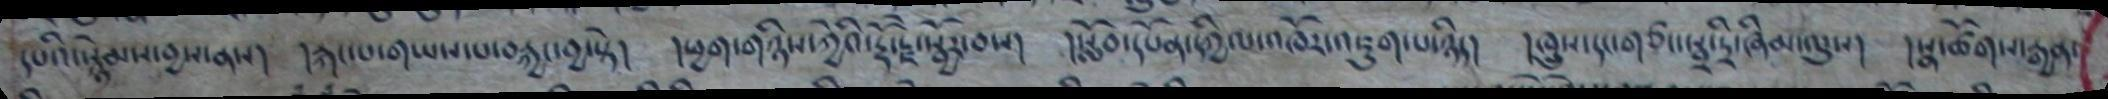དཔའི་སྙེམས་བྱས་ནས། །རྐང་པ་གཡས་པ་བརྐྱང་བྱ་སྟེ། །ཕྱག་གཉིས་ཀྱེའི་རྡོ་རྗེ་སྦྱོར་བས། །སློབ་དཔོན་དཀྱིལ་འཁོར་འཇུག་པ་ཉིད། །ཁྲུས་དང་གཙང་སྦྲ་དྲི་ཞིམ་ལུས། །སྣ་ཚོགས་རྒྱན་
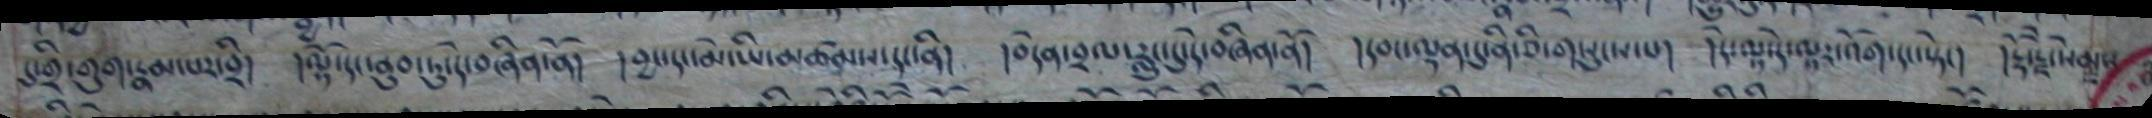དུ་གྲི་གུག་རྣམ་པར་བྲི། །ལྷི་དང་ནུབ་ཏུ་དེ་བཞིན་ནོ། །བྱང་དང་མེ་ཡི་མཚམས་དང་ནི། །བདེན་བྲལ་རླུང་དུ་དེ་བཞིན་ནོ། །དབང་ལྡན་དུ་ནི་ཅི་གསུངས་པ། །དེ་ལྟར་དེ་ལྟར་འོག་དང་སྟེང། །རྡོ་རྗེ་སེམས
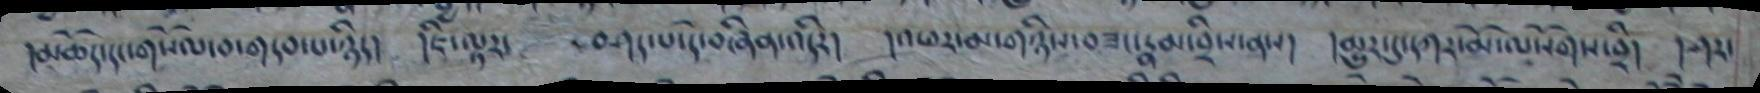།མཆོད་དང་གསོལ་བ་གདབ་པ་ཉིད། །ཇི་ལྟར་ བཤད་པ་དེ་བཞིན་འདིར། །འཕར་མ་གཉིས་བཟང་རྣམ་བྲིས་ནས། །མྱུར་དུ་དཀར་མོ་ལསོགས་བྲི། །ཤར་
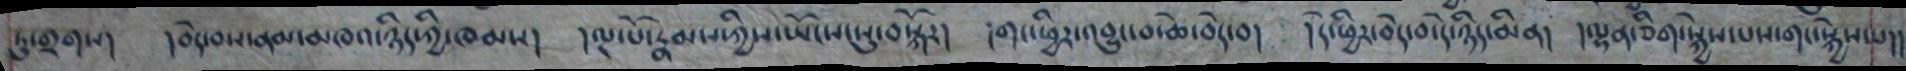ཏུ་གྲགས། །བདེ་བས་ནམ་མཁའ་ཉིད་ཀྱི་ཁམས། །ལྔ་པོ་རྣམས་ཀྱིས་ཡོངས་སུ་བསྐོར། །གང་ཕྱིར་འབྱུང་བ་ཆེ་བདེ་བ། །དེ་ཕྱིར་བདེ་བ་དེ་ཉིད་མིན། །ལྷན་ཅིག་སྐྱེས་པས་གང་སྐྱེས་པ།།
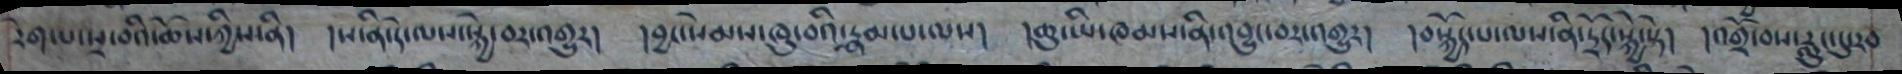རེག་པ་སྲ་བའི་ཆོས་ཀྱིས་ནི། །ས་ནི་དེ་ལས་སྐྱེ་བར་འགྱུར། །བྱང་སེམས་ཁུ་བའི་རྣམ་པ་ལས། །ཆུ་ཡི་ཁམས་ནི་འབྱུང་བར་འགྱུར། །བསྐྱོད་པ་ལས་ནི་དྲོད་སྐྱེ་སྟེ། །འགྲོ་བས་རླུང་དུ་རབ
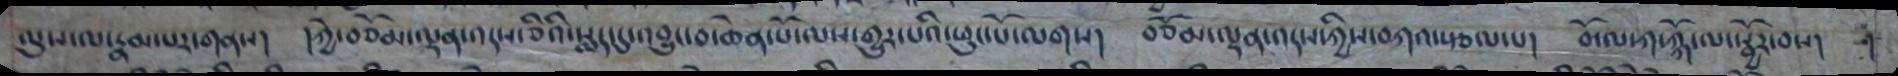ལུས་ལ་རྣམ་པར་གནས། །ཀྱེ་བཅོམ་ལྡན་འདས་ཅིའི་སྨད་དུ་འབྱུང་བ་ཆེན་པོ་ལས་གྱུར་པའི་ཕུང་པོ་ལགས། བཅོམ་ལྡན་འདས་ཀྱིས་བཀའ་སྩལ་པ། བོ་ལ་ཀ་ཀྐོ་ལ་སྦྱོར་བས།
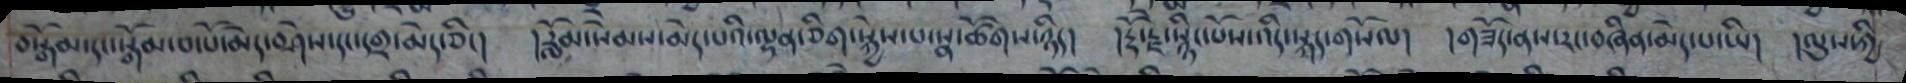བསྒོམ་དང་སྒོམ་བ་པོ་མེད་བཤེས་དང་དགྲ་མེད་ཅིང། །རློམ་སེམས་མེད་པའི་ལྷན་ཅིག་སྐྱེས་པ་སྣ་ཚོགས་ཉིད། །རྡོ་རྗེ་སྙིང་པོས་འདི་སྐད་གསོལ། །གཟོད་ནས་རང་བཞིན་མེད་པ་ཡི། །ལུས་ཀྱི
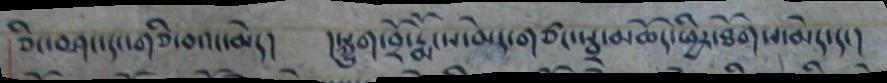ཅིང་བཤད་དང་གཅི་བའང་མེད། །སྐྱུག་བྲོ་རྨོངས་མེད་གཙང་སྦྲ་མཆོད་ཕྱིར་ཐོགས་མེད་དང།
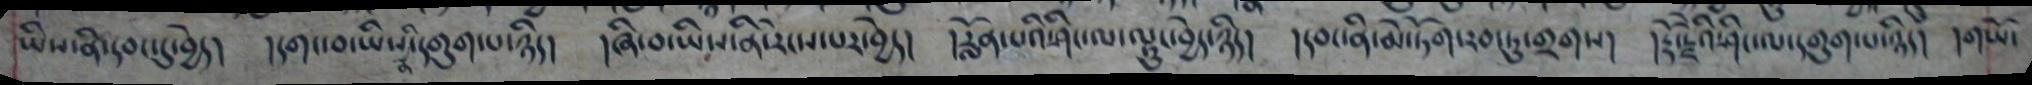ཡིས་ནི་དབང་དུ་བྱེད།   །དགང་བ་ཡིས་ནི་དགུག་པ་ཉིད།      །ཞི་བ་ཡིད་ནི་རེངས་པར་བྱེད།   རློན་པའི་ཤིང་ལ་ལྷུང་བྱེད་ཉིད།   །དབང་ནི་མེ་ཏོག་རབ་ཏུ་གྲགས།   །རྡོ་རྗེའི་ཤིང་ལ་དགུག་པ་ཉིད།   དགཡོ་
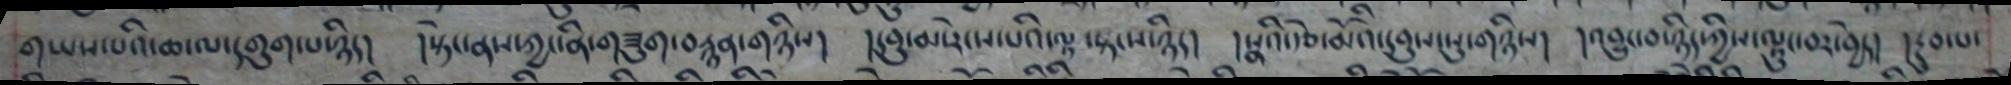གཡས་པའི་ཆ་ལ་དགུག་པ་ཉིད། །སྟེང་ནས་ཀྱང་ནི་གཟུག་བརྙན་གཉིས། །སབུ་མ་རེངས་པའི་ལྟ་སྟངས་ཉིད། །སྣའི་རྩེ་མོའི་དབུས་སུ་གཉིས། །འབྱུང་བ་ཉིད་ཀྱིས་ལྟུང་བར་བྱེད། །རྔུབ་པ་
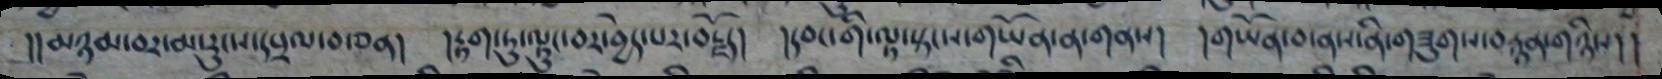།།མཉམ་བར་མ་རུངས་དཔྲལ་བ་ཅན། །རྟག་ཏུ་ལྟུང་བར་བྱེད་པར་བརྗོད། །དབང་གི་ལྟ་སྟངས་གཡོན་ན་གནས། །གཡོན་བ་ནས་ནི་གཟུགས་བརྙན་གཉིས།།
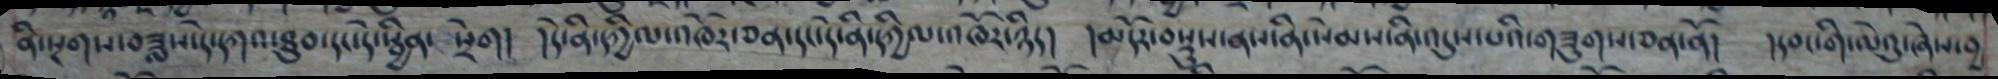ནི་སྔགས་བཟླས་དེ་དཀའ་ཐུབ་དང་དེ་སྦྱིན་ སྲེག། །དེ་ནི་དཀྱིལ་འཁོར་ཅན་དང་དེ་ནི་དཀྱིལ་འཁོར་ཉིད། །མདོར་བསྡུས་ནས་ནི་སེམས་ནི་འདུས་པའི་གཟུགས་ཅན་ནོ། །དབང་གི་ལེའུ་ཞེས་བྱ
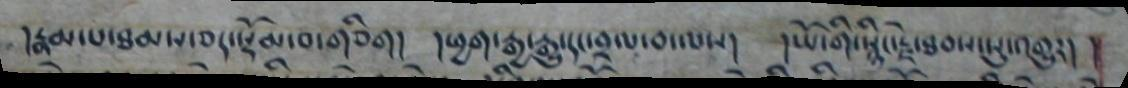།རྣམ་པ་ཐམས་ཅད་སྡོམ་བ་གཅིག། །ཕྱག་རྒྱ་རྒྱུ་དང་བྲལ་བ་ལས། །ཡོ་གི་སྙིང་རྗེ་ཐབས་སུ་འགྱུར། །
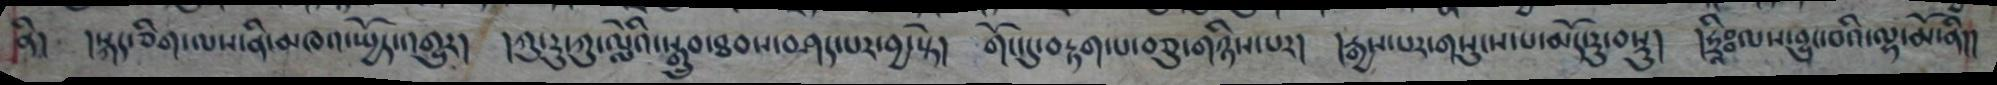ནི། །སྐད་ཅིག་ལས་ནི་མཁའ་སྤྱོད་འགྱུར། །ཀུ་རུ་ཀུ་ལླེའི་སྒྲུབ་ཐབས་བཤད་པར་བྱ་སྟེ། གོང་དུ་བརྟག་པ་བཅུ་གཉིས་པར། །རྒྱས་པར་གསུངས་པ་མདོ་རུ་བསྡུ། །ཧྲཱིཿཿ ལས་བྱུང་བའི་ལྷ་མོ་ནི།།
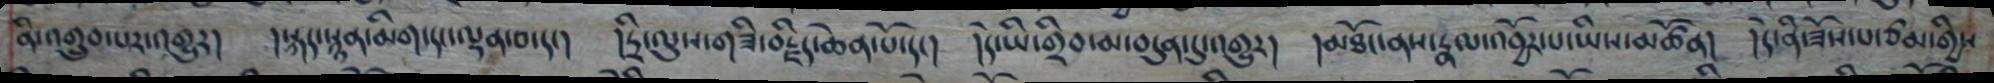ནི་འགྲུབ་པར་འགྱུར། །སྐད་སྙན་མིག་དང་ལྡན་བ་དང་། །དྲི་ལུས་གཟི་བརྗིད་ཆེན་པོ་དང། །དེ་ཡི་གྲིབ་མ་བདུན་དུ་འགྱུར། །མཐོང་ནས་རྣལ་འབྱོར་པ་ཡིས་མཚོན། །དེ་ནི་ཟོས་པ་ཙམ་གྱིས
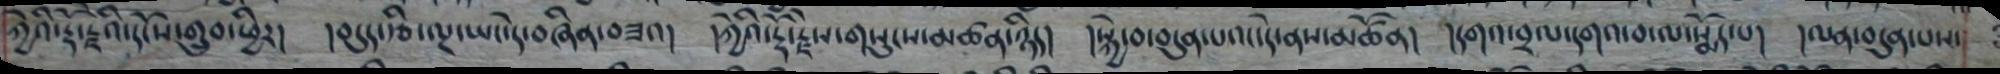ཀྱེའི་རྡོ་རྗེའི་དངོས་གྲུབ་ཕྱིར། །བདུད་རྩི་ལྔ་ཡང་དེ་བཞིན་བཟའ། །ཀྱེའི་རྡོ་རྗེས་གསུངས་མཚན་ཉིད། །སྐྱེ་བ་བདུན་པའང་དེ་ནས་མཚོན། །དགའ་བྲལ་དགའ་བ་ལ་སྨོད་པ། །ལན་བདུན་པས་
